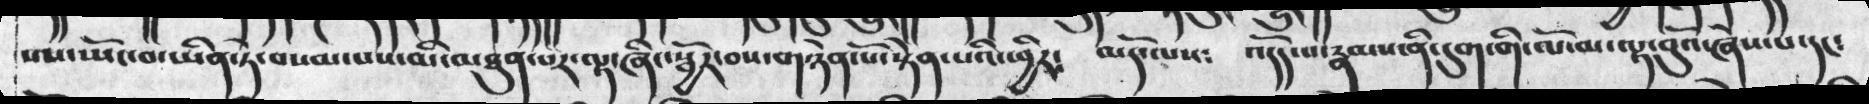ཨ་ཡོང་བ་ཡིན་ཏེ་བསམ་པས་མི་མཐུན་པར་ལྟ་ཞིང་སྦྱོར་བས་གཉེན་པོ་སྟེན་པའི་ཕྱིར༴  མདོ་ལས༴  འདོད་པ་རྣམས་ནི་དུག་གི་ལོ་མ་ལྟ་བུའོ་ཞེས་པ་དང༴
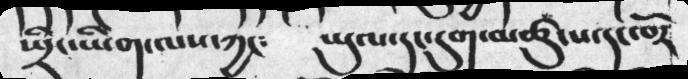སྤྲིང་ཡིག་ལས་ཀྱང༴  ཡུལ་དང་དུག་མཚུངས་དང་ཁོར
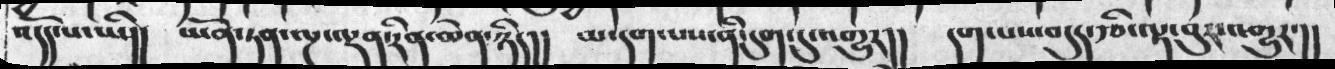འདོད་པ་ཡི།།  ཡོན་ཏན་ལྔ་ལྡན་རིན་ཆེན་ཉིད།།  མ་དག་པས་ནི་དུག་དུ་འགྱུར།།  དག་པས་བདུད་རྩི་ལྟ་བུར་འགྱུར་།།
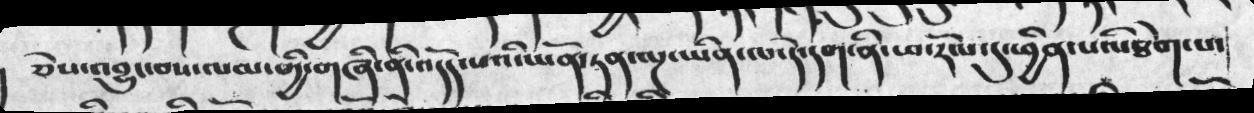། ཅེས་འབྱུང་བས་ལམ་གྱི་གཞི་ནི་འདོད་པའི་ཡོན་ཏན་ལྔ་ཡིན་ལ་དེ་དག་ནི་ཕ་རོལ་དུ་ཕྱིན་པའི་ཐེག་པ་
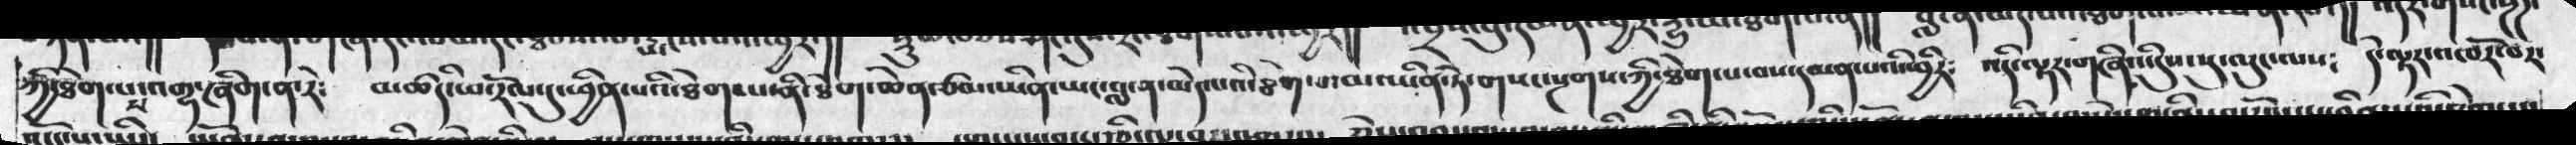ཀྱི་ཐེག་པས་འགྷ་ཞིག་ན་རེ༴   མཚདི་ཕ་རོལ་དུ་ཕྱིན་པའི་ཐེག་པ་ནི་ཐེག་ཆེན་ཙམ་ཡིན་ཡང་བླ་ན་མེད་པའི་ཐེག་པ་མ་ཡིན་ཏེ་གསང་སྔགས་ཀྱི་ཐེག་པ་བས་དམན་པའི་ཕྱིར༴  འདི་ལྟར་གཞིའི་དུས་སུལུང་ལས༴  དེ་ལྟར་འཁོར་བར་
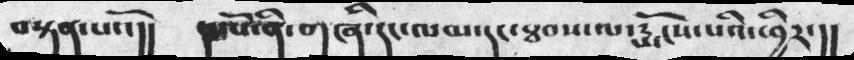བསྟན་པའོ།།  དང་པོ་ནི་གཞི་དང་ལམ་དང་ཐབས་ལ་རྨོངས་པའི་ཕྱིར་།།
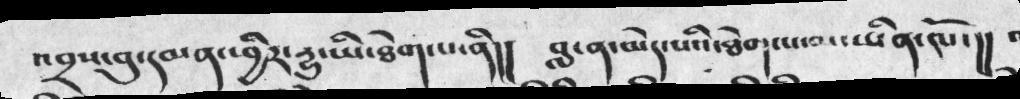འབྲས་བུ་དམན་ཕྱིར་རྱུ་ཡི་ཐེག་པ་ནི།། བླ་ན་མེད་པའི་ཐེག་པ་མ་ཡིན་ལོ་།།
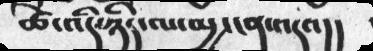ཚེ་འདི་ཉིད་ལ་མྱ་ངན་འདའ།།
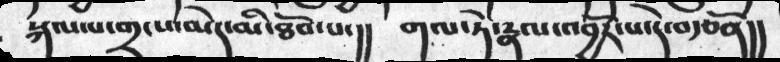སྐལ་པ་གྲངས་མེད་མི་ཐོབ་པ་།། གལ་ཏེ་རྣལ་འབྱོར་པ་དེ་བརྩོན།།
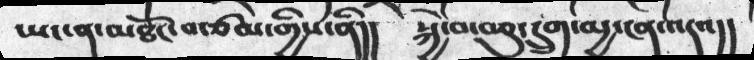ཡང་ན་མཐོང་བ་ཙམ་གྱིས་ནི།། སྐྱེ་བ་བཅུ་དྲུག་མྱ་ངན་འདའ།།
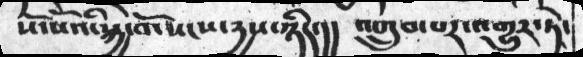སོ་སོའི་སྐྱེ་བོ་སངས་དྱས་ཉིད་།།  འགྲུབ་པར་འགྱུར་ཏེ་
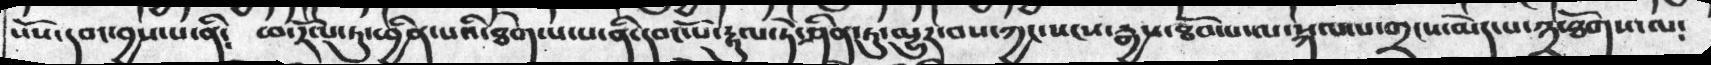སོས་དབང་བྱས་པ་ནི༴  ཕ་རོལ་ཏུ་ཕྱིན་པའི་ཐེག་པ་པ་ནི་དབང་པོ་རྟུལ་ཏེ་ཤིན་ཏུ་མྱུར་བས་ཀྱང་སངས་རྒྱས་ཐོབ་པ་ལ་སྐལ་པ་གྲངས་མེད་པ་༣་ཐོགས་ལ༴
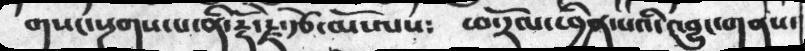གསང་སྔགས་པ་ནི་རྡོ་རྗེ་རྩེ་མོ་ལས༴  ཕ་རོལ་ཕྱིན་པའི་འབྱུང་གནས་
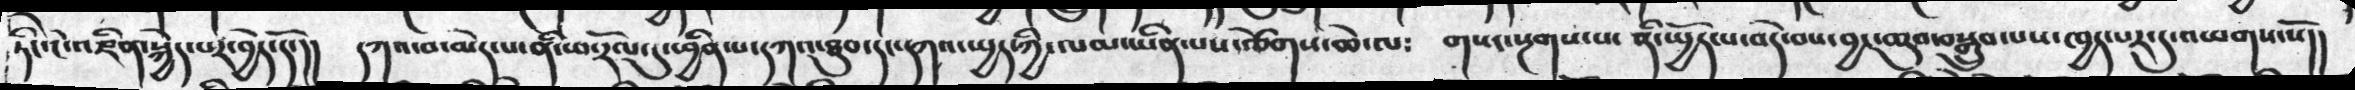ཏེང་ངེ་འཛིན་སྐྱེད་པར་བྱེད་དོ་།།  དཀའ་བ་མེད་པ་ནི་ཕ་རོལ་དུ་ཕྱིན་པ་དཀའ་ཐུབ་དང་དཀའ་སྤྱད་ཀྱི་ལམ་ཡིན་པས་ཚེགས་ཆེ་ལ༴  གསང་སྔགས་པ་ནི་སྤྱོད་པ་བདེ་བས་བྱང་ཆུབ་བསྒྲུབ་པས་ཁྱད་པར་དུ་འཕགས་སོ།།
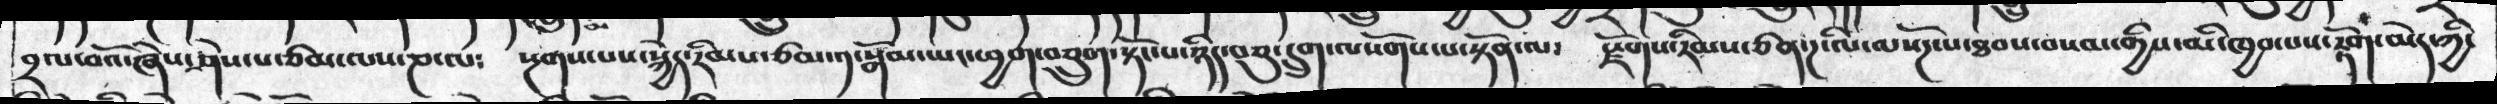བྲལ་བའོ་ཞེས་ཤེས་པ་ཙམ་ལས་ཎ་ལ༴  སྔགས་པས་སྐྱེད་རིམས་ཙམ་༡་སྒོམ་ཡང་ཕྱག་བཅྲུག་སྟོང་པ་ཉིད་བཅུ་དྲུག་ལསོགས་པ་སྟོན་ལ༴   རྫོགས་རིམས་ཙན་ཌ་ལི་ལསོཌ་པ་ཐབས་བསམ་གྱིས་མི་ཁྱབ་པས་རྟོག་མེད་ཀྱི་
